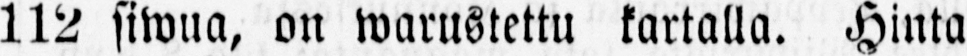112 siwua, on warustettu kartalla. Hinta
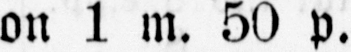on 1 m. 50 p.
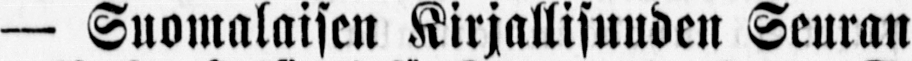— Suomalaisen Kirjallisuuden Seuran
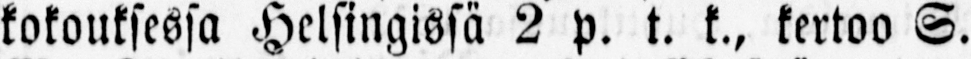kokouksessa Helsingissä 2 p. t. k., kertoo S.
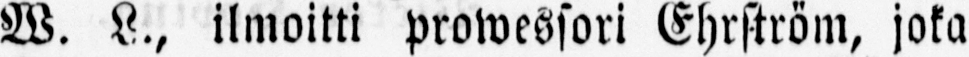W. L., ilmoitti prowessori Chrström, joka
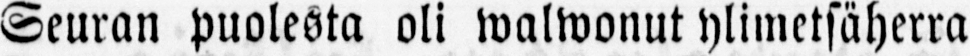Seuran puolesta oli walwonut ylimetsäherra
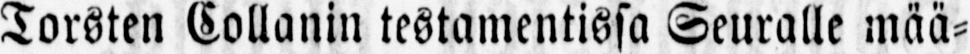Torsten Collanin testamentissa Seuralle mää-
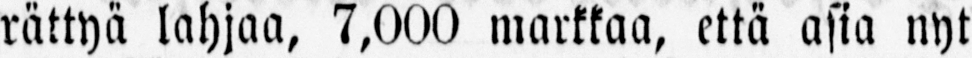rättyä lahjaa, 7,000 markkaa, että asia nyt
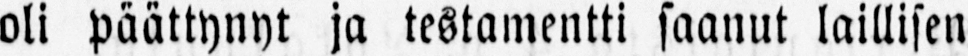oli päättynyt ja testamentti saanut laillisen
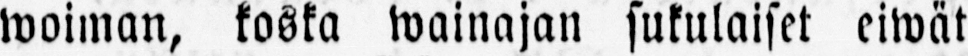woiman, koska wainajan sukulaiset eiwät
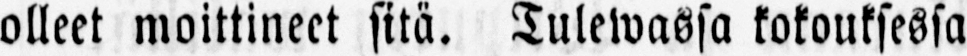olleet moittineet sitä. Tulewassa kokouksessa
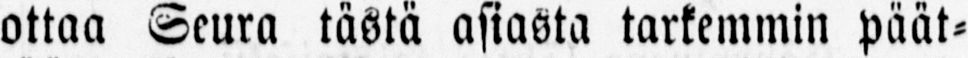ottaa Seura tästä asiasta tarkemmin päät-
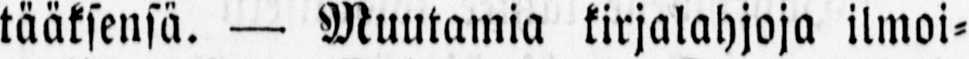tääksensä. — Muutamia kirjalahjoja ilmoi-
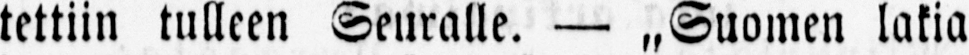tettiin tulleen Seuralle. — „Suomen lakia
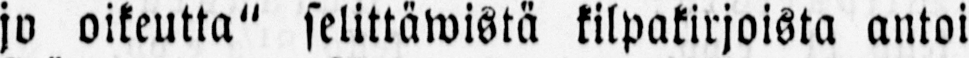jo oikeutta" selittäwistä kilpakirjoista antoi
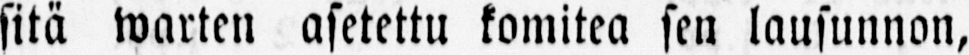sitä warten asetettu komitea sen lausunnon,
